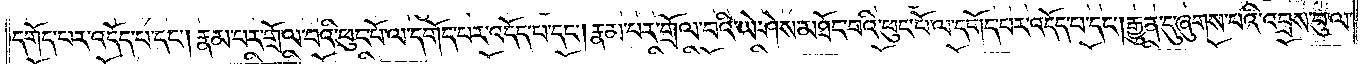དགོད་པར་འདོད་པ་དང༌། རྣམ་པར་གྲོལ་བའི་ཕུང་པོ་ལ་དགོད་པར་འདོད་པ་དང༌། རྣམ་པར་གྲོལ་བའི་ཡེ་ཤེས་མཐོང་བའི་ཕུང་པོ་ལ་དགོད་པར་འདོད་པ་དང༌། རྒྱུན་དུ་ཞུགས་པའི་འབྲས་བུ་ལ་
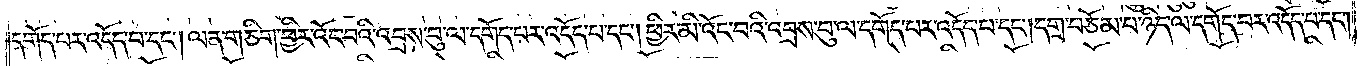དགོད་པར་འདོད་པ་དང༌། ལན་གཅིག་ཕྱིར་འོང་བའི་འབྲས་བུ་ལ་དགོད་པར་འདོད་པ་དང༌། ཕྱིར་མི་འོང་བའི་འབྲས་བུ་ལ་དགོད་པར་འདོད་པ་དང༌། དགྲ་བཅོམ་པ་ཉིད་ལ་དགོད་བར་འདོད་པ་དང༌།
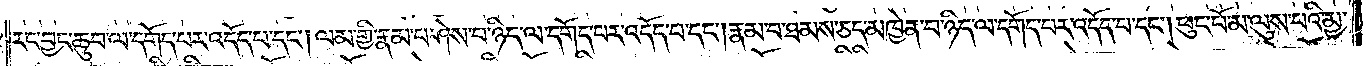རང་བྱང་ཆུབ་ལ་དགོད་པར་འདོད་པ་དང༌། ལམ་གྱི་རྣམ་པ་ཤེས་པ་ཉིད་ལ་དགོད་པར་འདོད་པ་དང༌། རྣམ་བ་ཐམས་ཅད་མཁྱེན་བ་ཉིད་ལ་དགོད་པར་འདོད་པ་དང༌། ཕུང་པོ་མ་ལུས་པའི་མྱ་
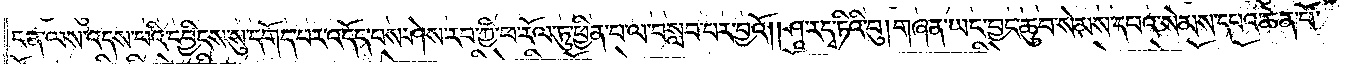ངན་ལས་འདས་པའི་དབྱིངས་སུ་དགོད་པར་འདོད་པས་ཤེས་རབ་ཀྱི་ཕ་རོལ་ཏུ་ཕྱིན་པ་ལ་བསླབ་པར་བྱའོ། །ཤཱ་ར་དྭ་ཏིའི་བུ། གཞན་ཡང་བྱང་ཆུབ་སེམས་དཔའ་སེམས་དཔའ་ཆེན་པོ་
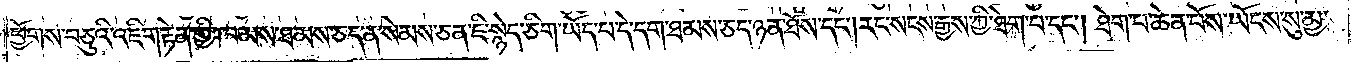ཕྱོགས་བཅུའི་འཇིག་རྟེན་གྱི་ཁམས་ཐམས་ཅད་ན་སེམས་ཅན་ཇི་སྙེད་ཅིག་ཡོད་པ་དེ་དག་ཐམས་ཅད་ཉན་ཐོས་དང༌། རང་སངས་རྒྱས་ཀྱི་ཐེག་པ་དང༌། ཐེག་པ་ཆེན་པོས་ཡོངས་སུ་མྱ་
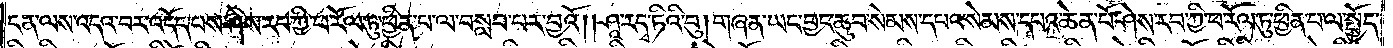ངན་ལས་འདའ་བར་འདོད་པས་ཤེས་རབ་ཀྱི་ཕ་རོལ་ཏུ་ཕྱིན་པ་ལ་བསླབ་པར་བྱའོ། །ཤཱ་ར་དྭ་ཏིའི་བུ། གཞན་ཡང་བྱང་ཆུབ་སེམས་དཔའ་སེམས་དཔའ་ཆེན་པོ་ཤེས་རབ་ཀྱི་ཕ་རོལ་ཏུ་ཕྱིན་པ་ལ་སྤྱོད་
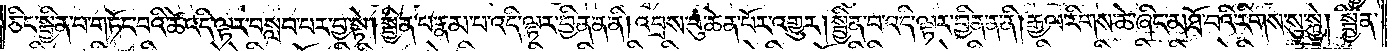ཅིང་སྦྱིན་པ་གཏོང་བའི་ཚེ་འདི་ལྟར་བསླབ་པར་བྱ་སྟེ། སྦྱིན་པ་རྣམ་པ་འདི་ལྟར་བྱིན་ན་ནི། འབྲས་བུ་ཆེན་པོར་འགྱུར། སྦྱིན་པ་འདི་ལྟར་བྱིན་ན་ནི། རྒྱལ་རིགས་ཆེ་ཞིང་མཐོ་བའི་རིགས་སུ་སྐྱེ། སྦྱིན་
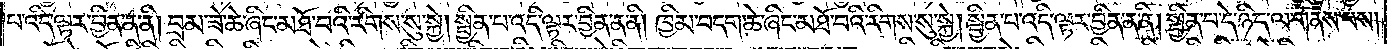པ་འདི་ལྟར་བྱིན་ན་ནི། བྲམ་ཟེ་ཆེ་ཞིང་མཐོ་བའི་རིགས་སུ་སྐྱེ། སྦྱིན་པ་འདི་ལྟར་བྱིན་ན་ནི། ཁྱིམ་བདག་ཆེ་ཞིང་མཐོ་བའི་རིགས་སུ་སྐྱེ། སྦྱིན་པ་འདི་ལྟར་བྱིན་ན་ནི། སྦྱིན་པ་དེ་ཉིད་ལ་གནས་པས།
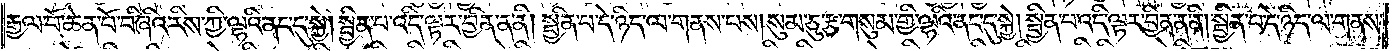རྒྱལ་པོ་ཆེན་པོ་བཞིའི་རིས་ཀྱི་ལྷའི་ནང་དུ་སྐྱེ། སྦྱིན་པ་འདི་ལྟར་བྱིན་ན་ནི། སྦྱིན་པ་དེ་ཉིད་ལ་གནས་པས། སུམ་ཅུ་རྩ་གསུམ་གྱི་ལྷའི་ནང་དུ་སྐྱེ། སྦྱིན་པ་འདི་ལྟར་བྱིན་ན་ནི། སྦྱིན་པ་དེ་ཉིད་ལ་གནས་
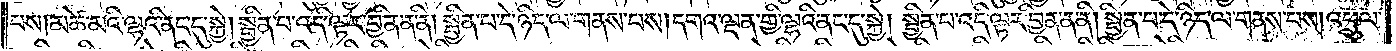པས། མཚེ་མའི་ལྷའི་ནང་དུ་སྐྱེ། སྦྱིན་པ་འདི་ལྟར་བྱིན་ན་ནི། སྦྱིན་པ་དེ་ཉིད་ལ་གནས་པས། དགའ་ལྡན་གྱི་ལྷའི་ནང་དུ་སྐྱེ། སྦྱིན་པ་འདི་ལྟར་བྱིན་ན་ནི། སྦྱིན་པ་དེ་ཉིད་ལ་གནས་པས། འཕྲུལ་
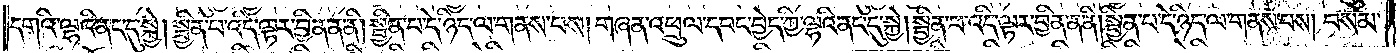དགའི་ལྷའི་ནང་དུ་སྐྱེ། སྦྱིན་པ་འདི་ལྟར་བྱིན་ན་ནི། སྦྱིན་པ་དེ་ཉིད་ལ་གནས་པས། གཞན་འཕྲུལ་དབང་བྱེད་ཀྱི་ལྷའི་ནང་དུ་སྐྱེ། སྦྱིན་པ་འདི་ལྟར་བྱིན་ན་ནི། སྦྱིན་པ་དེ་ཉིད་ལ་གནས་པས། བསམ་
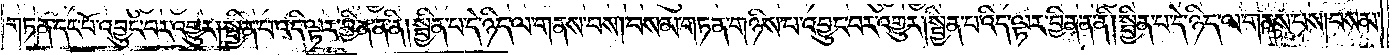གཏན་དང་པོ་འབྱུང་བར་འགྱུར། སྦྱིན་པ་འདི་ལྟར་བྱིན་ན་ནི། སྦྱིན་པ་དེ་ཉིད་ལ་གནས་པས། བསམ་གཏན་གཉིས་པ་འབྱུང་བར་འགྱུར། སྦྱིན་པ་འདི་ལྟར་བྱིན་ན་ནི། སྦྱིན་པ་དེ་ཉིད་ལ་གནས་པས། བསམ་
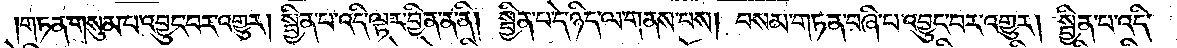གཏན་གསུམ་པ་འབྱུང་བར་འགྱུར། སྦྱིན་པ་འདི་ལྟར་བྱིན་ན་ནི། སྦྱིན་པ་དེ་ཉིད་ལ་གནས་པས། བསམ་གཏན་བཞི་པ་འབྱུང་བར་འགྱུར། སྦྱིན་པ་འདི་
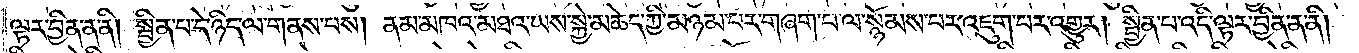ལྟར་བྱིན་ན་ནི། སྦྱིན་པ་དེ་ཉིད་ལ་གནས་པས། ནམ་མཁའ་མཐའ་ཡས་སྐྱེ་མཆེད་ཀྱི་མཉམ་པར་གཞག་པ་ལ་སྙོམས་པར་འཇུག་པར་འགྱུར། སྦྱིན་པ་འདི་ལྟར་བྱིན་ན་ནི།
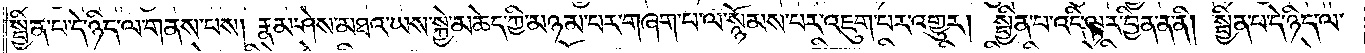སྦྱིན་པ་དེ་ཉིད་ལ་གནས་པས། རྣམ་ཤེས་མཐའ་ཡས་སྐྱེ་མཆེད་ཀྱི་མཉམ་པར་གཞག་པ་ལ་སྙོམས་པར་འཇུག་པར་འགྱུར། སྦྱིན་པ་འདི་ལྟར་བྱིན་ན་ནི། སྦྱིན་པ་དེ་ཉིད་ལ་
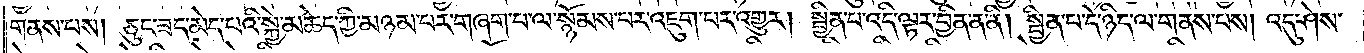གནས་པས། ཅུང་ཟད་མེད་པའི་སྐྱེ་མཆེད་ཀྱི་མཉམ་པར་གཞག་པ་ལ་སྙོམས་པར་འཇུག་པར་འགྱུར། སྦྱིན་པ་འདི་ལྟར་བྱིན་ན་ནི། སྦྱིན་པ་དེ་ཉིད་ལ་གནས་པས། འདུ་ཤེས་
